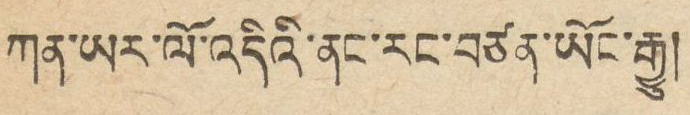ཀན་ཡར་ལོ་འདིའི་ནང་རང་བཙན་ཡོང་རྒྱུ།
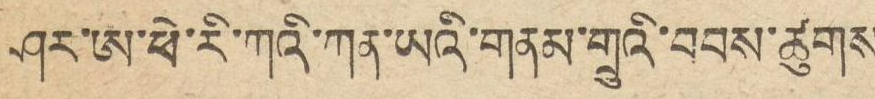ཤར་ཨེ་ཕེ་རི་ཀའི་ཀན་ཡའི་གནམ་གྲུའི་བབས་ཚུགས
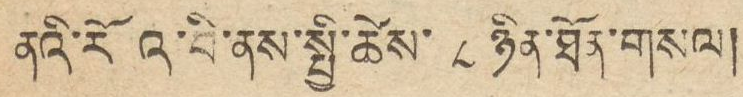ནའི་རོའ་བི་ནས་སྤྱི་ཚེས་ ༨ ཉིན་ཐོན་གསལ།
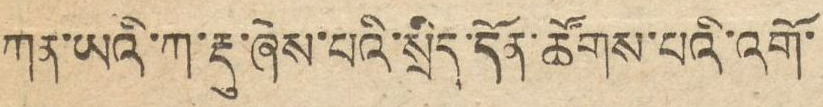ཀན་ཡའི་ཀ་རྡུ་ཞེས་པའི་སྲིད་དོན་ཚོགས་པའི་འགོ་
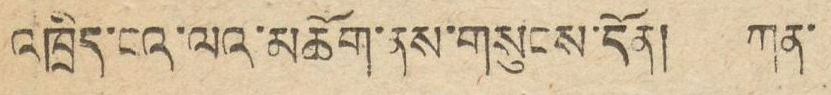འཁྲིད་ངའ་ལའ་མཆོག་ནས་གསུངས་དོན། ཀན་
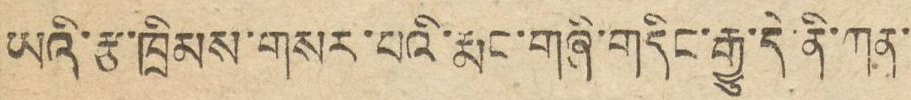ཡའི་རྩ་ཁྲིམས་གསར་པའི་རྨང་གཞི་གདིང་རྒྱུ་དེ་ནི་ཀན་
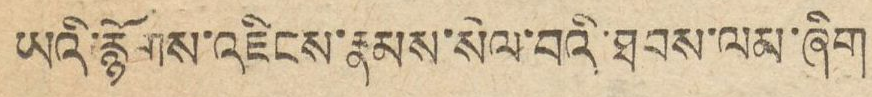ཡའི་རྙོགས་འཛིངས་རྣམས་སེལ་བའི་ཐབས་ལམ་ཞིག
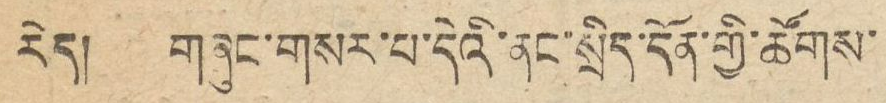རེད། གཞུང་གསར་པ་དེའི་ནང་སྲིད་དོན་གྱི་ཚོགས་
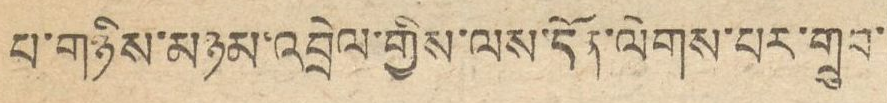པ་གཉིས་མཉམ་འབྲེལ་གྱིས་ལས་དོན་ལེགས་པར་གྲུབ་
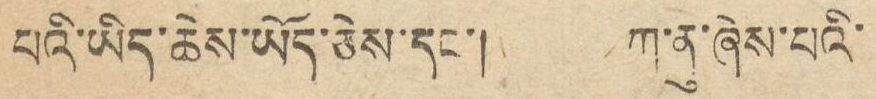པའི་ཡིད་ཆེས་ཡོད་ཅེས་དང་། ཀ་ནུ་ཞེས་པའི་
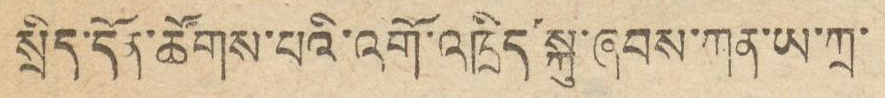སྲིད་དོན་ཚོགས་པའི་འགོ་འཁྲིད་སྐུ་ཞབས་ཀན་ཡ་ཀྲ་
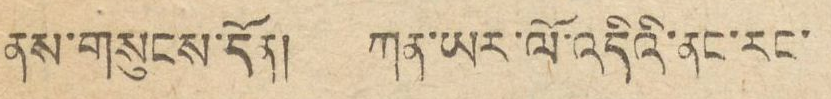ནས་གསུངས་དོན། ཀན་ཡར་ལོ་འདིའི་ནང་རང་
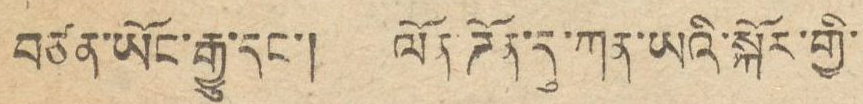བཙན་ཡོང་རྒྱུ་དང་། ལོན་ཌོན་དུ་ཀན་ཡའི་སྐོར་གྱི་
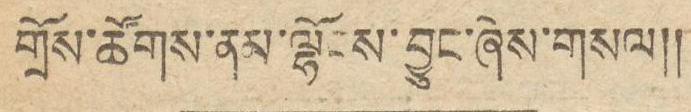གྲོས་ཚོགས་ནམ་ལྷོངས་བྱུང་ཞེས་གསལ།།
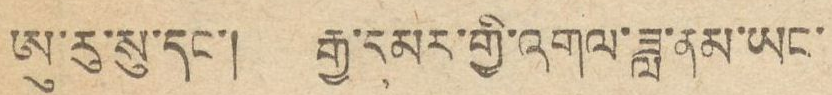ཨུ་རུ་སུ་དང་། རྒྱ་དམར་གྱི་འགལ་ཟླ་ནམ་ཡང་
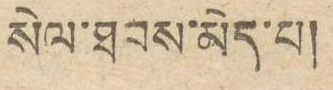སེལ་ཐབས་མེད་པ།
